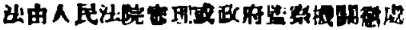法由人民法院審理或政府檢察機關懲處
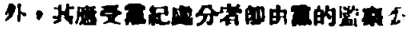外，其應受黨紀處分者卽由黨的監察委
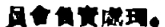員會負責處理。
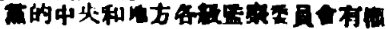黨的中央和地方各級監察委員會有權
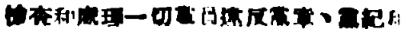檢查和處理一切黨員違反黨章、黨紀和
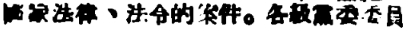國家法律、法令的案件。各級黨委委員
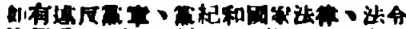如有違反黨章、黨紀和國家法律、法令
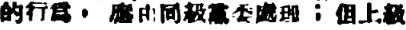的行爲， 應由同級黨委處理 ；但上級
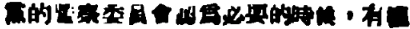黨的監察委員會認爲必要的時候，有權
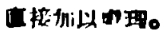直接加以處理。
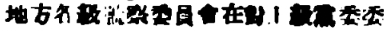地方各級監察委員會在對上級黨委委
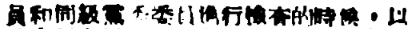員和同級黨委委員進行檢查的時候，以
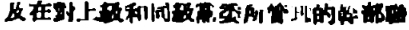及在對上級和同級黨委所管理的幹部職
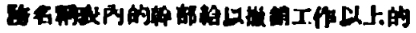務名稱表內的幹部給以撤銷工作以上的
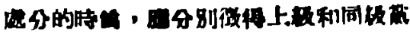處分的時候，應分別徵得上級和同級黨
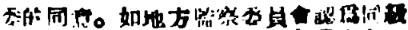委的同意。如地方監察委員會認爲同級
